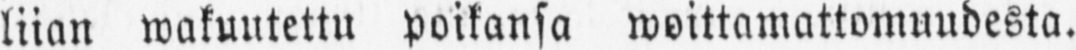liian wakuutettu poikansa woittamattomuudesta.
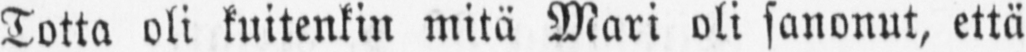Totta oli kuitenkin mitä Mari oli sanonut, että
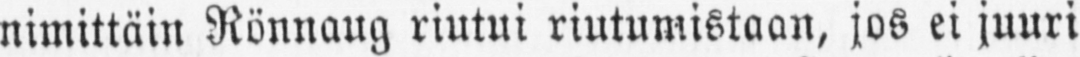nimittäin Rönnaug riutui riutumistaan, jos ei juuri
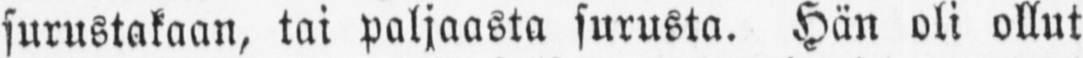surustakaan, tai paljaasta surusta. Hän oli ollut
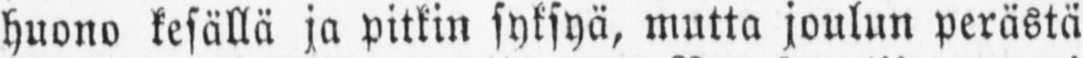huono kesällä ja pitkin syksyä, mutta joulun perästä
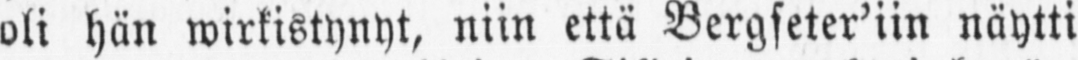oli hän wirkistynyt, niin että Bergseter'iin näytti
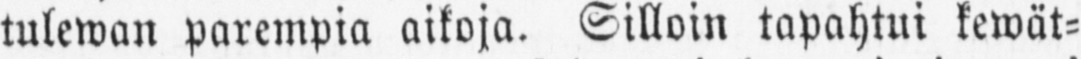tulewan parempia aikoja. Silloin tapahtui kewät-
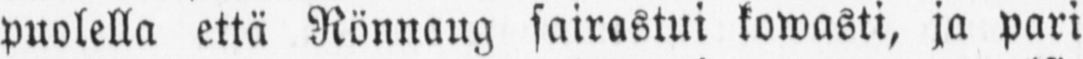puolella että Rönnaug sairastui kowasti, ja pari
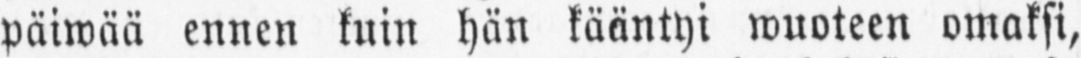päiwää ennen kuin hän kääntyi wuoteen omaksi,
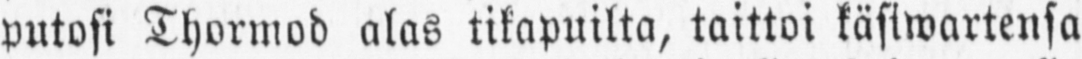putosi Thormod alas tikapuilta, taittoi käsiwartensa
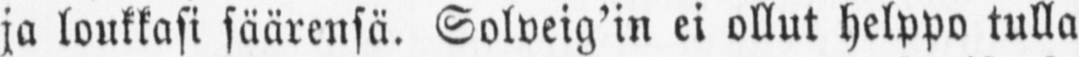ja loukkasi säärensä. Solveig'in ei ollut helppo tulla
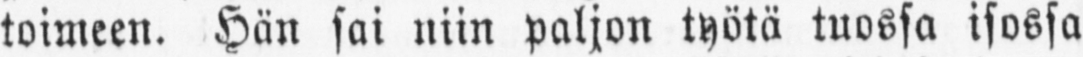toimeen. Hän sai niin paljon työtä tuossa isossa
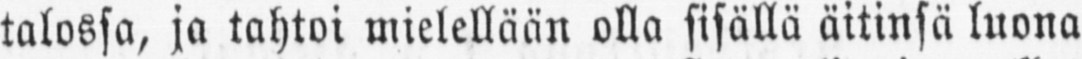talossa, ja tahtoi mielellään olla sisällä äitinsä luona
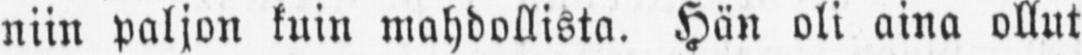niin paljon kuin mahdollista. Hän oli aina ollut
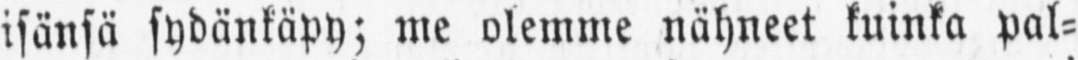isänsä sydänkäpy; me olemme nähneet kuinka pal-
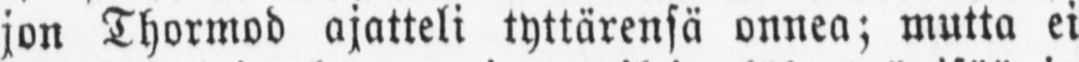jon Thormod ajatteli tyttärensä onnea; mutta ei
